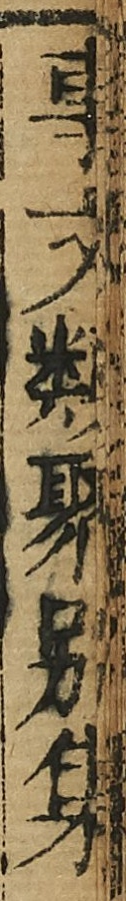事文類聚别集
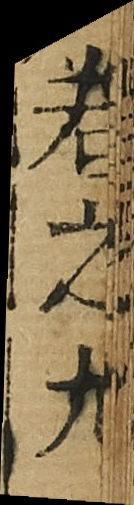卷之九
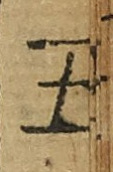五
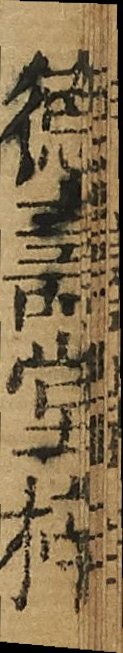德壽堂梓
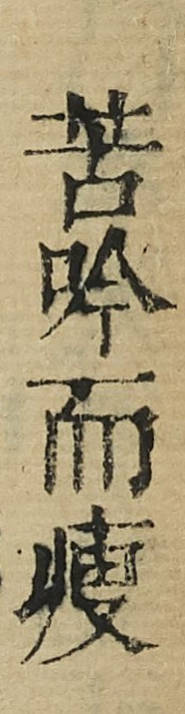苦吟而瘦
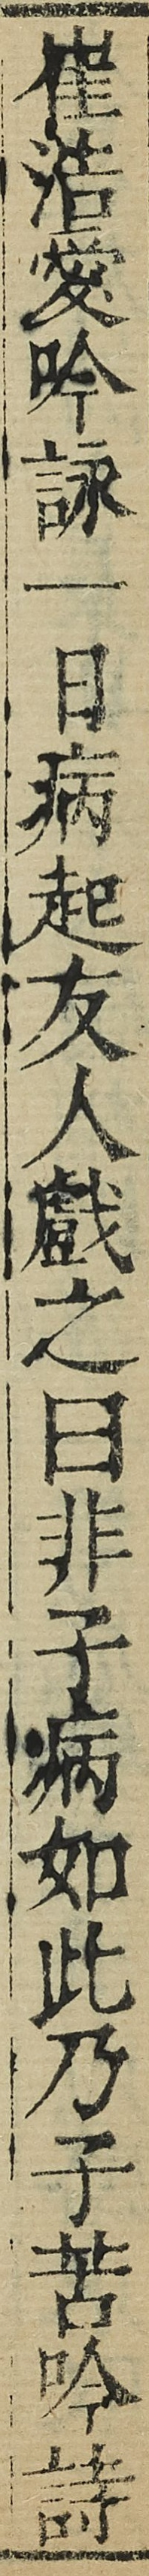崔浩愛吟詠一日病起友人戲之曰非子病如此乃子苦吟詩
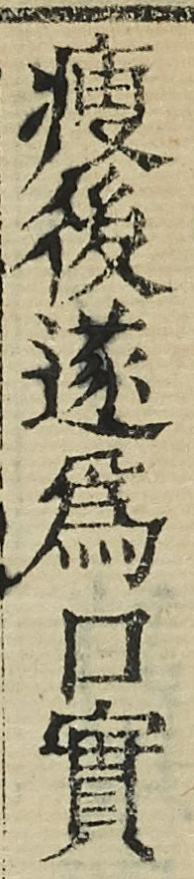瘦後遂為口實
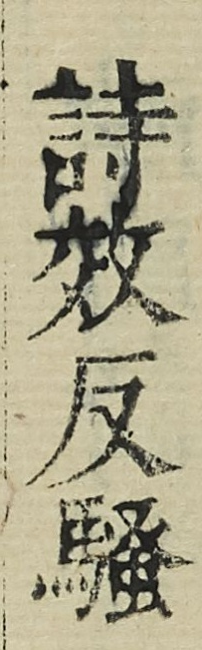詩效反騷
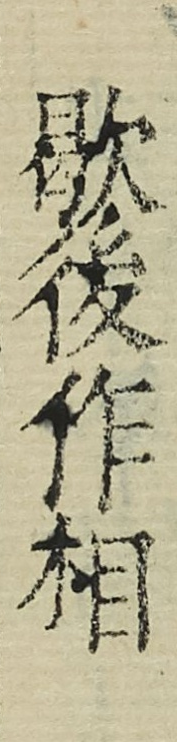歇後作相
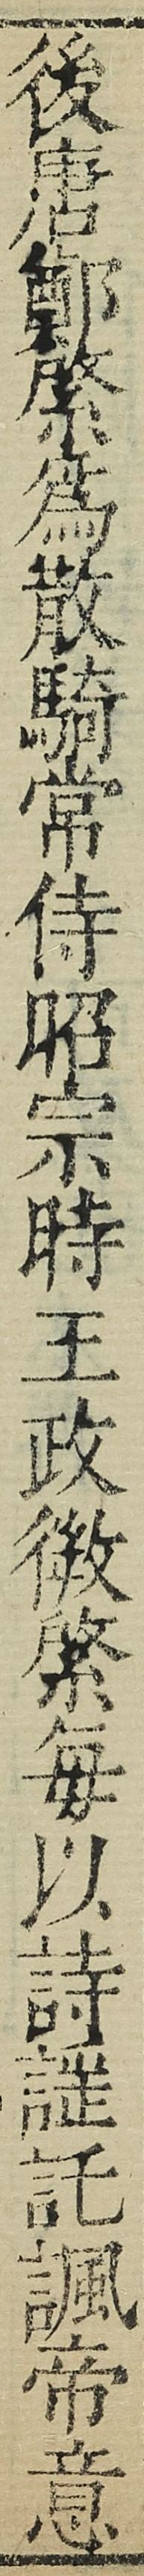後唐鄭綮為散騎常侍昭宗時王政微綮每以詩謡託諷帝意
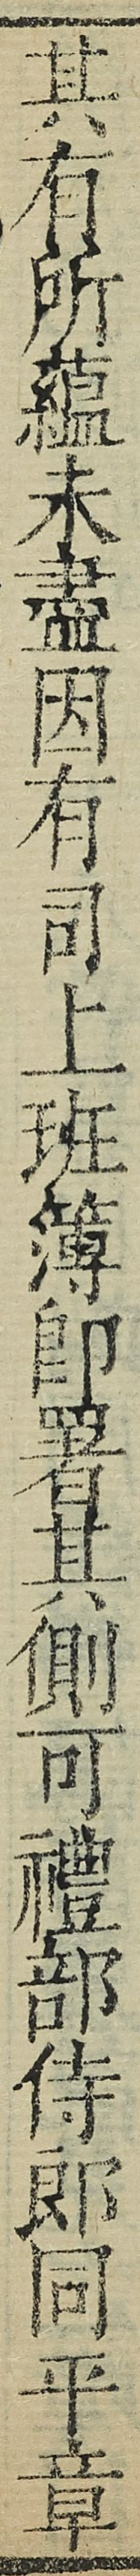其有所藴未盡因有司上班簿卽署其側可禮部侍郎同平章
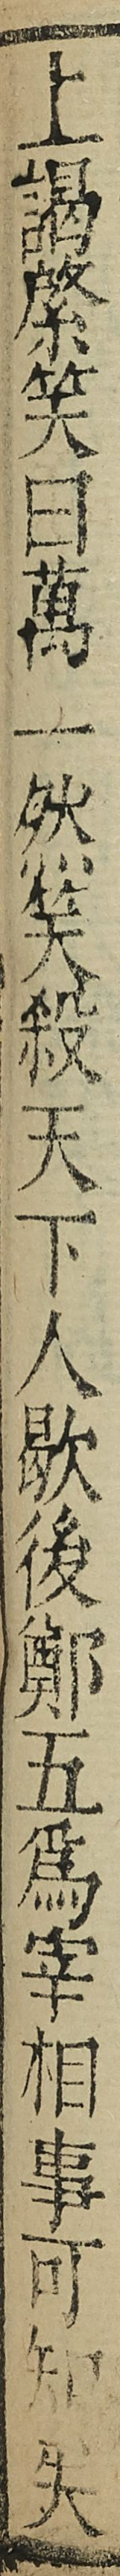上謁綮笑曰萬一然笑殺天下人歇後鄭五為宰相事可知矣
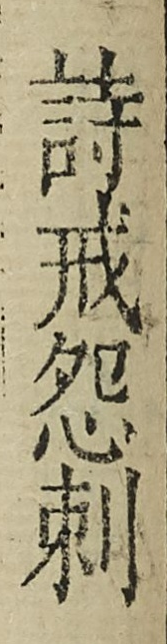詩戒怨刺
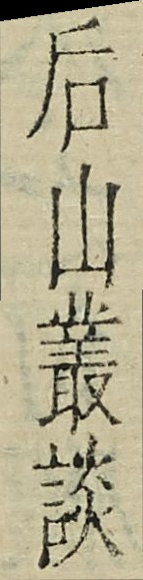后山叢談
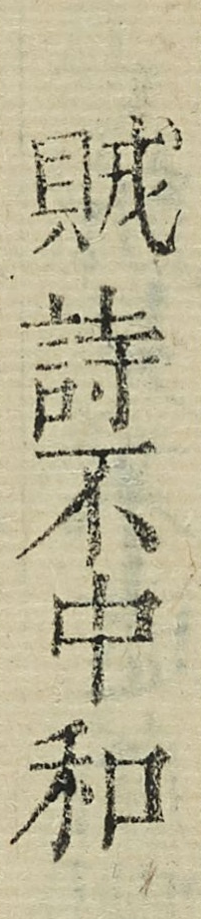賊詩不中和
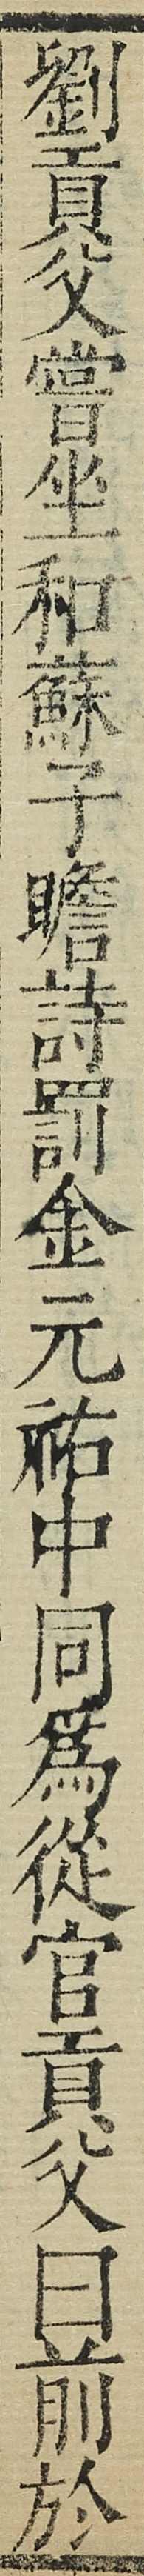劉貢父嘗坐和蘇子瞻詩罰金元祐中同為從官貢父曰前於
